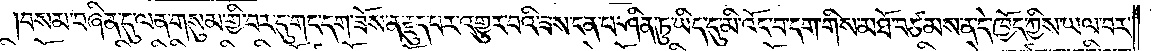བསམ་བཞིན་དུ་ལན་གསུམ་གྱི་བར་དུ་གང་དག་ཟོས་ན་རྗུད་པར་འགྱུར་བའི་ཟས་ངན་པ་ཤིན་ཏུ་ཡིད་དུ་མི་འོང་བ་དག་གིས་མཐོ་བཙམས་ན་དེ་ཁྱོད་ཀྱིས་ཡལ་བར་
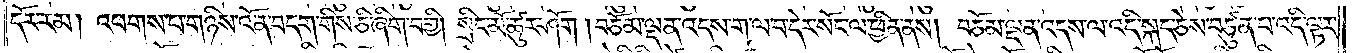དོར་རམ། འཕགས་པ་གཉིས་འོ་ན་བདག་གིས་ཅི་ཞིག་བགྱི། སྲིང་མོ་ཚུར་ཤོག །བཅོམ་ལྡན་འདས་ག་ལ་བ་དེར་སོང་ལ་ཕྱིན་ནས། བཅོམ་ལྡན་འདས་ལ་འདི་སྐད་ཅེས་བཙུན་པ་འདི་ལྟར་
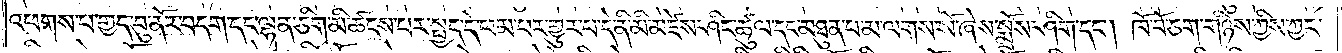འཕགས་པ་གྱད་བུ་ནོར་བདག་དང་ལྷན་ཅིག་མི་ཚངས་པར་སྤྱད་དེ་ཕམ་པར་གྱུར་པ་དེ་ནི་མི་མཛེས་ཤིང་ཚུལ་དང་མཐུན་པ་མ་ལགས་སོ་ཞེས་སྨྲོས་ཤིག་དང༌། ཁོ་བོ་ཅག་གཉིས་ཀྱིས་ཀྱང་
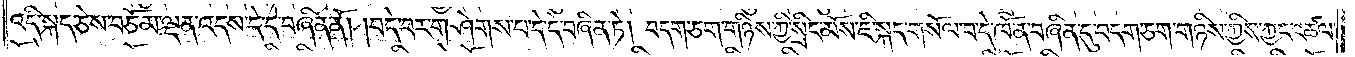འདི་སྐད་ཅེས་བཅོམ་ལྡན་འདས་དེ་དེ་བཞིན་ནོ། །བདེ་བར་གཤེགས་པ་དེ་དེ་བཞིན་ཏེ། བདག་ཅག་གཉིས་ཀྱི་སྲིང་མོས་ཇི་སྐད་གསོལ་བ་དེ་ཁོ་ན་བཞིན་དུ་བདག་ཅག་གཉིས་ཀྱིས་ཀྱང་འཚལ་
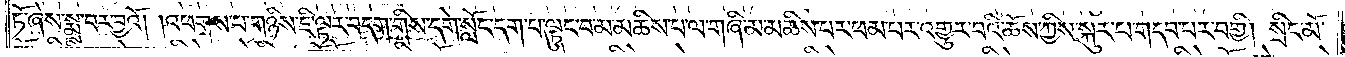ཏོ་ཞེས་སྨྲ་བར་བྱའོ། །འཕགས་པ་གཉིས་ཇི་ལྟར་བདག་གིས་དགེ་སློང་དག་པ་ལྟུང་བ་མ་མཆིས་པ་ལ་གཞི་མ་མཆིས་པར་ཕམ་པར་འགྱུར་བའི་ཆོས་ཀྱིས་སྐུར་པ་གདབ་པར་བགྱི། སྲིང་མོ་
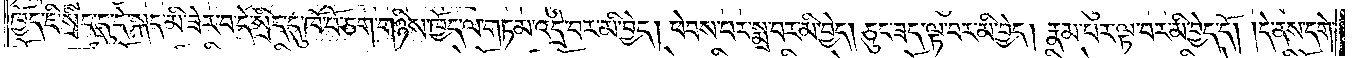ཁྱོད་ཇི་སྲིད་དུ་དེ་སྐད་མི་ཟེར་བ་དེ་སྲིད་དུ་ཁོ་བོ་ཅག་གཉིས་ཁྱོད་ལ་གཏམ་འདྲེ་བར་མི་བྱེད། ཕེབས་པར་སྨྲ་བར་མི་བྱེད། ཅུང་ཟད་ལྟ་བར་མི་བྱེད། རྣམ་པར་ལྟ་བར་མི་བྱེད་དོ། །དེ་ནས་དགེ་
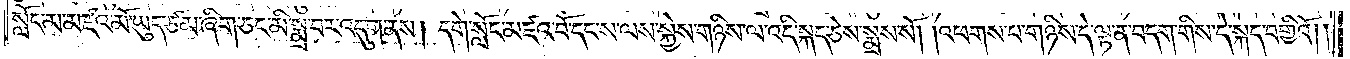སློང་མ་མཛའ་མོ་ཡུད་ཙམ་ཞིག་ཅང་མི་སྨྲ་བར་འདུག་ནས། དགེ་སློང་མཛའ་བོ་དང་ས་ལས་སྐྱེས་གཉིས་ལ་འདི་སྐད་ཅེས་སྨྲས་སོ། །འཕགས་པ་གཉིས་དེ་ལྟ་ན་བདག་གིས་དེ་སྐད་བགྱིའོ། །
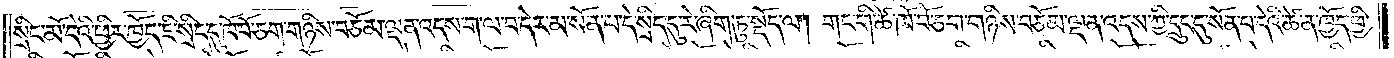སྲིང་མོ་དེའི་ཕྱིར་ཁྱོད་ཇི་སྲིད་དུ་ཁོ་བོ་ཅག་གཉིས་བཅོམ་ལྡན་འདས་ག་ལ་བ་དེར་མ་སོན་པ་དེ་སྲིད་དུ་རེ་ཞིག་ཏུ་སྡོད་ལ། གང་གི་ཚེ་ཁོ་བོ་ཅག་གཉིས་བཅོམ་ལྡན་འདས་ཀྱི་དྲུང་དུ་སོན་པ་དེའི་ཚེ་ན་ཁྱོད་ཕྱི་
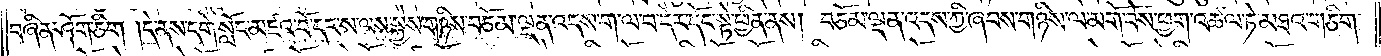བཞིན་ཤོག་ཅིག །དེ་ནས་དགེ་སློང་མཛའ་བོ་དང་ས་ལས་སྐྱེས་གཉིས་བཅོམ་ལྡན་འདས་ག་ལ་བ་དེར་དོང་སྟེ་ཕྱིན་ནས། བཅོམ་ལྡན་འདས་ཀྱི་ཞབས་གཉིས་ལ་མགོ་བོས་ཕྱག་འཚལ་ཏེ་མཐའ་གཅིག་
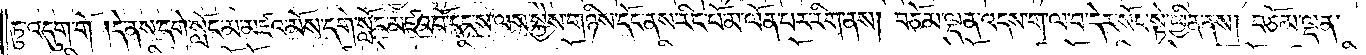ཏུ་འདུག་གོ །དེ་ནས་དགེ་སློང་མ་མཛའ་མོས་དགེ་སློང་མཛའ་བོ་དང་ས་ལས་སྐྱེས་གཉིས་དོང་ནས་རིང་པོ་མ་ལོན་པར་རིག་ནས། བཅོམ་ལྡན་འདས་ག་ལ་བ་དེར་སོང་སྟེ་ཕྱིན་ནས། བཅོམ་ལྡན་
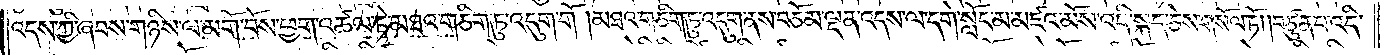འདས་ཀྱི་ཞབས་གཉིས་ལ་མགོ་བོས་ཕྱག་འཚལ་ཏེ་མཐའ་གཅིག་ཏུ་འདུག་གོ །མཐའ་གཅིག་ཏུ་འདུག་ནས་བཅོམ་ལྡན་འདས་ལ་དགེ་སློང་མ་མཛའ་མོས་འདི་སྐད་ཅེས་གསོལ་ཏོ། །བཙུན་པ་འདི་
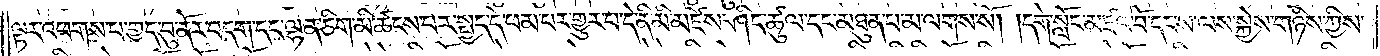ལྟར་འཕགས་པ་གྱད་བུ་ནོར་བདག་དང་ལྷན་ཅིག་མི་ཚངས་པར་སྤྱད་དེ་ཕམ་པར་གྱུར་པ་དེ་ནི་མི་མཛེས་ཤིང་ཚུལ་དང་མཐུན་པ་མ་ལགས་སོ། །དགེ་སློང་མཛའ་བོ་དང་ས་ལས་སྐྱེས་གཉིས་ཀྱིས་
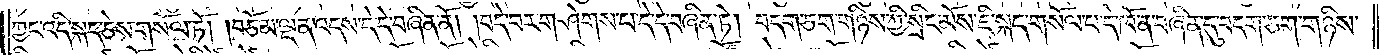ཀྱང་འདི་སྐད་ཅེས་གསོལ་ཏོ། །བཅོམ་ལྡན་འདས་དེ་དེ་བཞིན་ནོ། །བདེ་བར་གཤེགས་པ་དེ་དེ་བཞིན་ཏེ། བདག་ཅག་གཉིས་ཀྱི་སྲིང་མོས་ཇི་སྐད་གསོལ་པ་དེ་ཁོ་ན་བཞིན་དུ་བདག་ཅག་གཉིས་
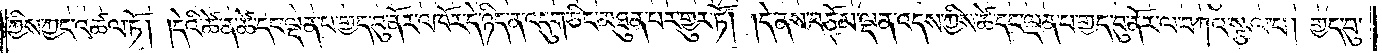ཀྱིས་ཀྱང་འཚལ་ཏོ། །དེའི་ཚེ་ན་ཚེ་དང་ལྡན་པ་གྱད་བུ་ནོར་འཁོར་དེ་ཉིད་ན་འདུག་ཅིང་མཐུན་པར་གྱུར་ཏོ། །དེ་ནས་བཅོམ་ལྡན་འདས་ཀྱིས་ཚེ་དང་ལྡན་པ་གྱད་བུ་ནོར་ལ་བཀའ་སྩལ་པ། གྱད་བུ་
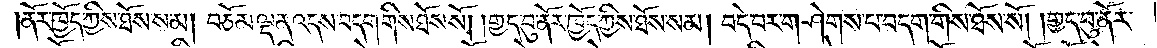།ནོར་ཁྱོད་ཀྱིས་ཐོས་སམ། བཅོམ་ལྡན་འདས་བདག་གིས་ཐོས་སོ། །གྱད་བུ་ནོར་ཁྱོད་ཀྱིས་ཐོས་སམ། བདེ་བར་གཤེགས་པ་བདག་གིས་ཐོས་སོ། །གྱད་བུ་ནོར་
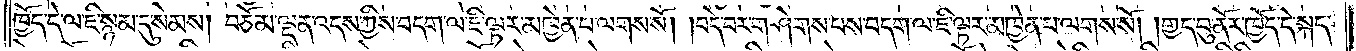ཁྱོད་དེ་ལ་ཇི་སྙམ་དུ་སེམས། བཅོམ་ལྡན་འདས་ཀྱིས་བདག་ལ་ཇི་ལྟར་མཁྱེན་པ་ལགས་སོ། །བདེ་བར་གཤེགས་པས་བདག་ལ་ཇི་ལྟར་མཁྱེན་པ་ལགས་སོ། །གྱད་བུ་ནོར་ཁྱོད་དེ་སྐད་
